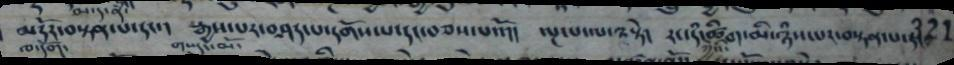མདོར་བསྟན་པ་དང་།   རྒྱས་པར་བཤད་པ་དགོས་པ་དང་བཅས་པའོ།།   ལྔ་པ་ལ་༢སྟེ།   རང་དང་ཚིག་མི་ཉཾས་པར་བསྟན་པ་དང་
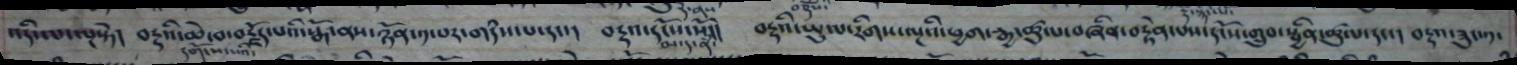འདི་ལ་ལྔ་སྟེ།   བརྟའི་ཆེ་བ་མརྗོད་པའི་སྒོ་ནས་ཉོན་༡་པར་གདཾས་པ་དང་།་་བརྡའ་དངོས་སོ།།  བརྡའི་ཡུལ་རིགས་ལྔའི་ཕྱག་རྒྱ་ཚུལ་བཞིན་བརྟེན་པས་དངོས་གྲུབ་སྦྱིན་ཚུལ་དང་།  བརྡའ་ཟུང༡་
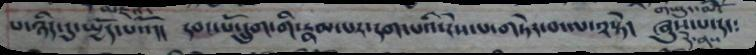པ་ཉིད་དུ་ཡྱོད་པའོ།།    དབང་པོ་དྲུག་གི་རྣམ་པར་དག་པའི་ངེས་པ་གཏེར་བ་ལ་༢སྟེ།   ཞུས་པ་དང༴
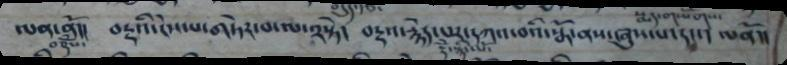ལན་ནོ།།    བརྡའི་ངེས་པ་གཏེར་བ་ལ་༢་སྟེ།     བརྡའ་རྙེད་པར་དཀའ་བའི་སྒོ་ནས་ཞུས་པ་དང་།།  ལན་ནོ།།
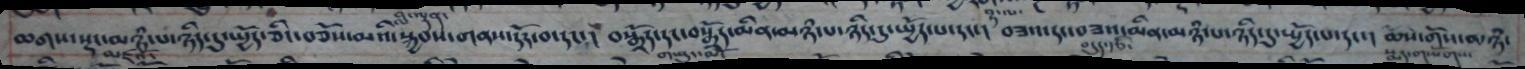ཆགས་སྡང་མཉཾ་པ་ཉིད་དུ་ཡྱོད་ཅིང་བཅོས་མའི་སྐྱབས་གནས་དོར་བ་དང།   བསྒྲོད་དང་བསྒྲོད་མིན་མཉཾ་པ་ཉིད་དུ་ཡྱོད་པ་དང་།   བཟའ་དང་བཟའ་མིན་མཉཾ་པ་ཉིད་དུ་ཡྱོད་པ་དང་།   ཆོས་གོས་མཉཾ་
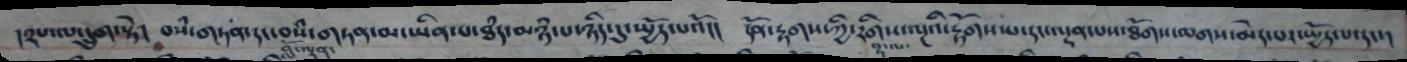།༢པ་ཀ་དྲུག་སྟེ།   བསཾ་གཏན་དང་བསཾ་གཏན་མ་ཡིན་པ་ཐཾད་མཉཾ་པ་ཉིད་དུ་ཡྱོད་པའོ།།   དོན་རྟགས་ཀྱི་རིགས་ལྔའི་རྟོགས་པ་དང་འདྲན་པས་ཐོགས་ཆགས་མེད་པར་ཡྱོད་པ་དང་།
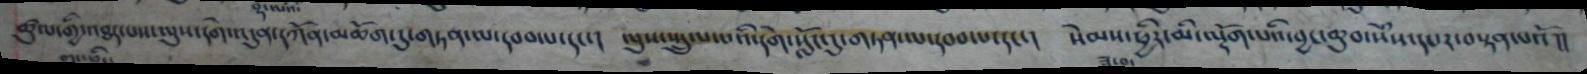ཚུལ་གྱི་འཐར་པས་ལུས་དགེ་འདུན་དཀོན་མཆོག་དུ་གཏན་ལ་དབབ་པ་དང་།  ལུས་སྤྲུ་པ་བའི་དགེ་སློང་དུ་གཏན་ལ་དབབ་པ་དང་།  སེམས་ཕྱིར་མི་ལྡོག་པའི་བྱང་ཆུབ་སེཾས་དཔར་བརྟན་པའོ །།
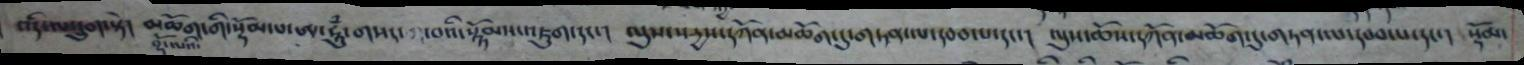འདི་ལ་དྲུག་སྟེ།   མཆོག་གི་སྡོམ་པ་ཨ་ཧཱུཾ་གསང་བའི་སྙོམས་འཇུག་དང་།  ལུས་སརྱས་དཀོན་མཆོག་དུ་གཏན་ལ་དབབ་པ་དང་།   ལུས་ཆོས་དཀོན་མཆོག་དུ་གཏན་ལ་དབབ་པ་དང་།   སྡོམ་
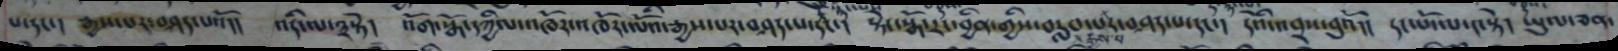པ་དང་།  རྒྱས་པར་བཤད་པའོ།།  འདི་ལས་༣་སྟེ།  འགོ་སྒོ་དཀྱིལ་འཁོར་ལོའི་རྒྱས་པར་བཤད་པ་དང་།  སྟེ་སྒོ་རང་བྱིན་གྱིས་བརླབ་པར་སྒྱས་པ་བཤད་པ་དང་།  དེའི་འབྲས་བུའི།།  དང་པོ་ལ་༤་སྟེ།  ཡུལ་ཅན་
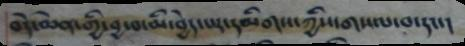བདེ་ཆེན་གྱི་བྱ་བ་མི་བྱེད་པར་དམིགས་ཀྱིས་གསལ་བ་དང་།
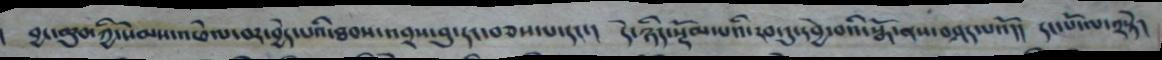བྱང་ཆུབ་ཀྱི་སེམས་འཕེལ་བར་བྱེད་པའི་ཐབས་འབྲས་བུ་དང་བཅས་པ་དང་། དེ་ཉིད་སྡོམ་པའི་རབ་དུ་དབྱེ་བའི་སྒོ་ནས་བཤད་པའོ།། དང་པོ་ལ་༢སྟེ།
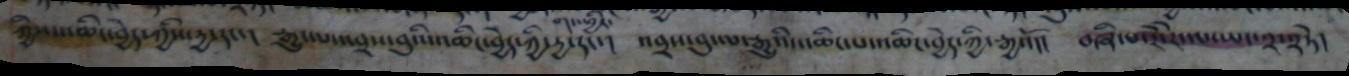ཀྱིས་འཆིང་བྱེད་ཀྱིས་དྱ་དང་།  རྒྱུ་ལ་འབྲས་བུའི་འཆིང་བྱེད་ཀྱི་དྱ་དང་།  འབྲས་བུ་ལ་རྒྱུའི་འཆིང་པ་འཆིང་བྱེད་ཀྱི་རྒྱའོ།།  བཞི་པ་རེ་རེ་ལ་ཡང་༢་༢ཏེ།
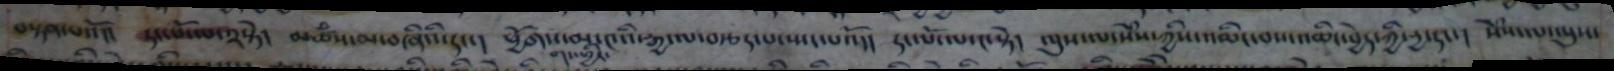བསྟན་པའོ།།  དང་པོ་ལ་༢སྟེ།   མཚཾས་མ་བཞིའི་དང་།   ཕྱོགས་མ་༤འི་རྒྱ་ལ་བརྩད་པ་སྤང་པའོ།།  དང་པོ་ལ་༤་སྟེ།  ལུས་ལ་སེཾས་ཀྱིས་འཆིང་བས་འཆིང་བྱེད་ཀྱི་དྱ་དང་།  སེཾས་ལ་ལུས་
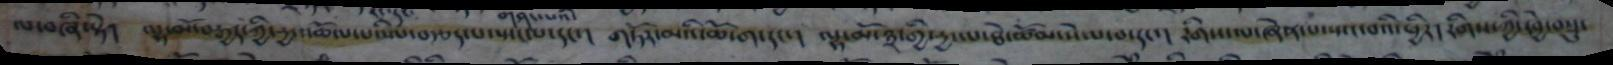ལ་བཞི་སྟེ།   ལྷ་མོ་བརྒྱད་ཀྱི་དྱ་འཆོལ་བའི་ལ་བརྩད་པ་སྤང་པ་དང་།   གཏོར་མའི་ཆོ་ག་དང་།  ལྷ་མོ་༣་གྱི་དྱ་ལ་ཐེ་ཚོམ་སེལ་བ་དང་།  རིགས་ལ་ཞེན་པ་སྤང་བའི་ཕྱིར།  རིགས་ཀྱི་དབྱེ་བསྡུ་
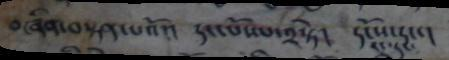བཞིན་བསྟན་པའོ།།  དང་པོ་ལ་༢སྟེ།  དངོས་དང་།
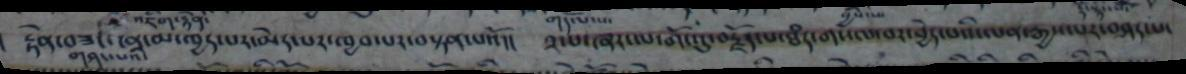རྟེན་བཟང་ངན་མ་ཁྱད་པར་མེད་པར་ཁྱབ་པར་བསྟན་པའོ།། ༢་པ་ཞར་ལ་གོང་དུ་བརྗོད་པ་ཐཾད་གསལ་བར་བྱེད་པའི་ལན་རྒྱས་པར་བཤད་པ་
